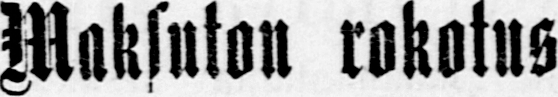Maksuton rokotus
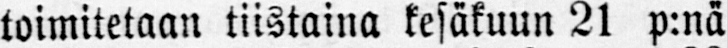toimitetaan tiistaina kesäkuun 21 p:nä
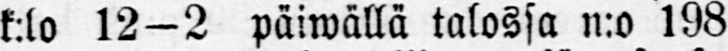k:lo 12—2 päiwällä talossa n:o 198
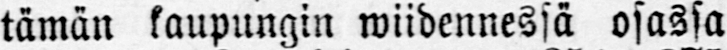tämän kaupungin wiidennessä osassa
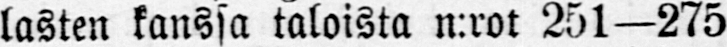lasten kanssa taloista n:rot 251—275
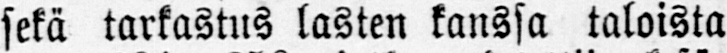sekä tarkastus lasten kanssa taloista
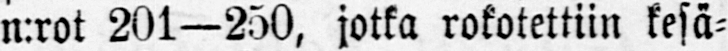n.rot 201—250, jotka rokotettiin kesä-
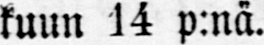kuun 14 p:nä.
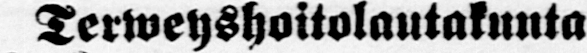Terweyshoitolautakunta.
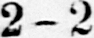2-2
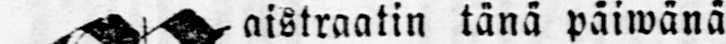Maistraatin tänä tänä päiwänä
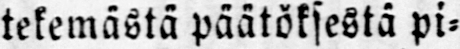tekemästä päätöksestä pi-
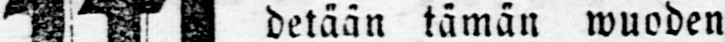detään tämän wuoden
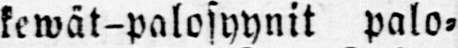kewät-palosyynit palo-
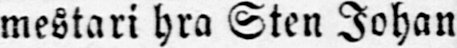mestari hra Sten Johan
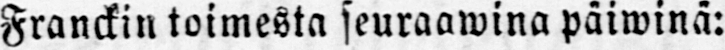Franckin toimesta seuraawina päiwinä:
